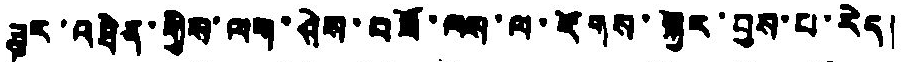ཟུར་འཐེན་གྱིས་ལག་ཤེས་བཟོ་ལས་ལ་རོགས་སྐྱེར་བྱས་པ་རེད།
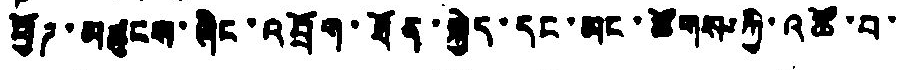ཕྱོཌ་མཚུངས་ཞིང་འབྲོག་ཐོན་སྐྱེད་དང་མང་ཚོགས་ཀྱི་འཚོ་བ་
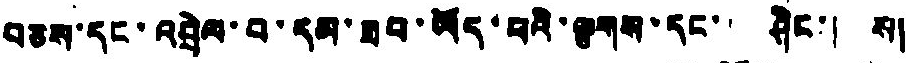བཅས་དང་འབྲེལ་བ་དམ་ཟབ་ཡོད་པའི་ལྕགས་དང་ ཤིང་། ས།
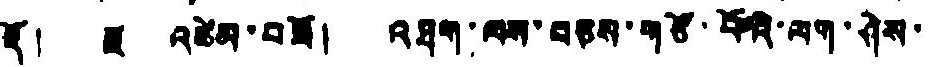རྡོ། རྫ འཚེམ་བཟོ། འཐག་ལས་བཅས་གཙོ་བོའི་ལག་ཤེས་
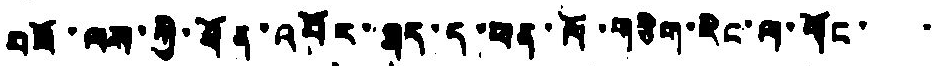བཟོ་ལས་ཀྱི་ཐོན་འབོར་ཐད་ད་ཕན་ལོ་གཅིག་རིང་ལ་གོང་ ་
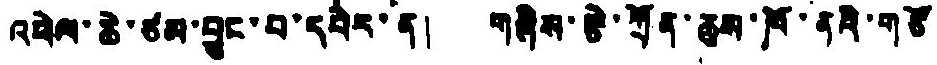འཕེལ་ཆེ་ཙམ་བྱུང་བ་དཔེར་ན། གཞིས་རྩེ་ཀྲོན་ཆུས་ཁོ་ནའི་གཙོ
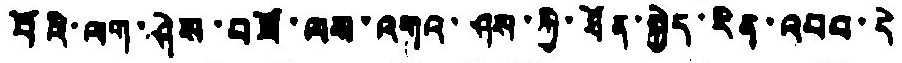བོའི་ལག་ཤེས་བཟོ་ལས་འགའ་ཤས་ཀྱི་ཐོན་སྐྱེད་རིན་འབབ་དེ
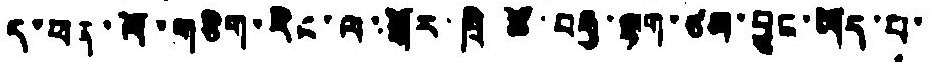ད་ཕན་ཁོ་གཅིག་རིང་ལ་སྒོར་ཁྲི ཚོ་བརྒྱ་ལྷག་ཙམ་བྱུང་ཡོད་པ་
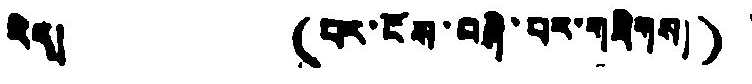རེད། (པར་ངོས་བཞི་པར་གཟིགས།)
